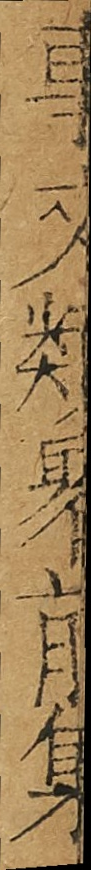事文類聚前集
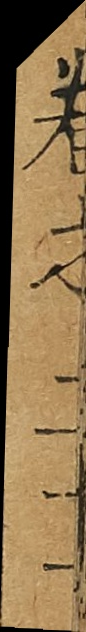卷之二十一
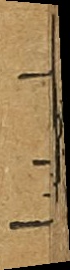十三
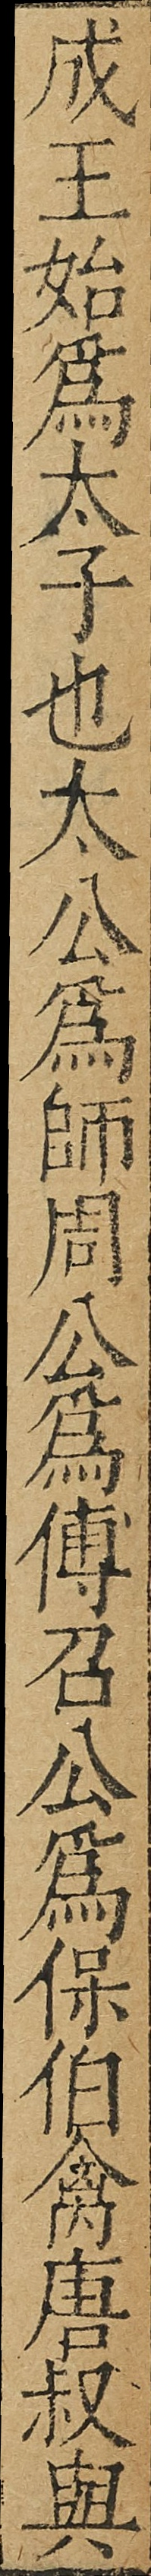成王始為太子也太公為師周公為傅召公為保伯禽唐叔與
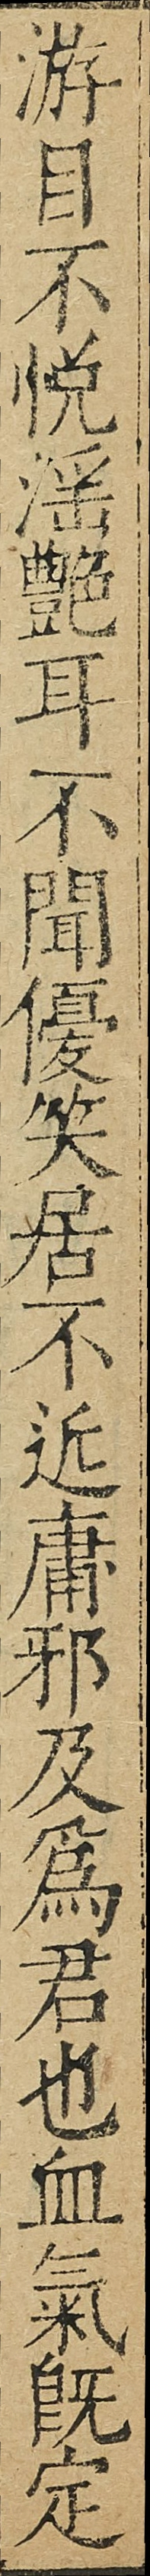游目不恱淫艶耳不聞優笑居不近庸邪及為君也血氣旣定
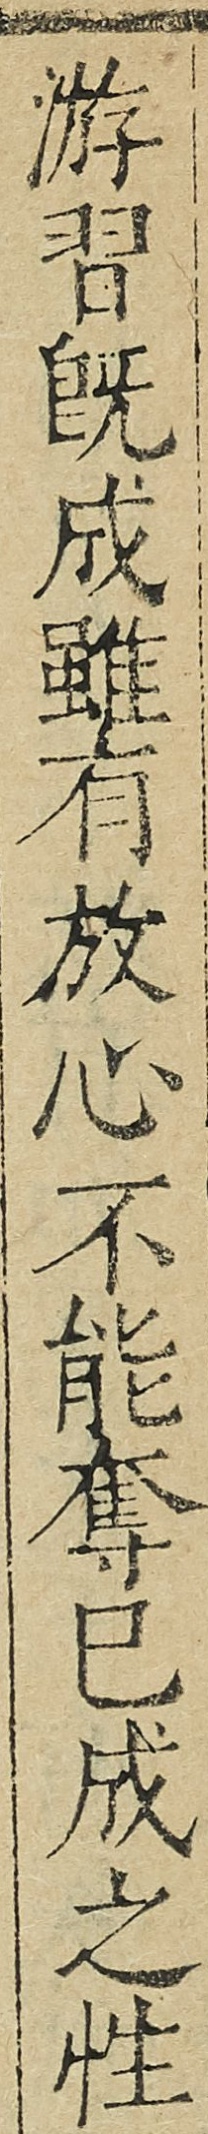游習旣成雖有放心不能奪已成之性
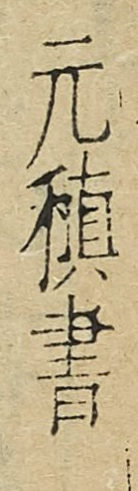元稹書
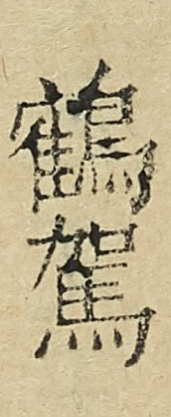鶴駕
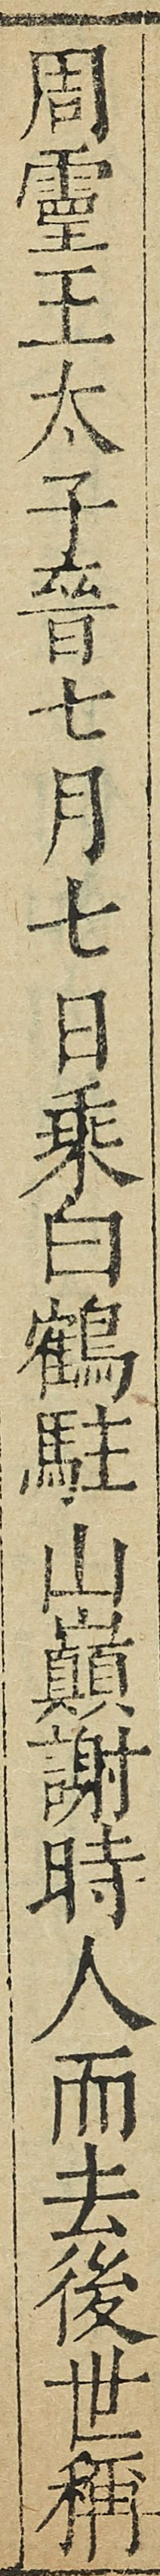周𤫊王太子晉七月七日乘白鶴駐山巔謝時人而去後世稱
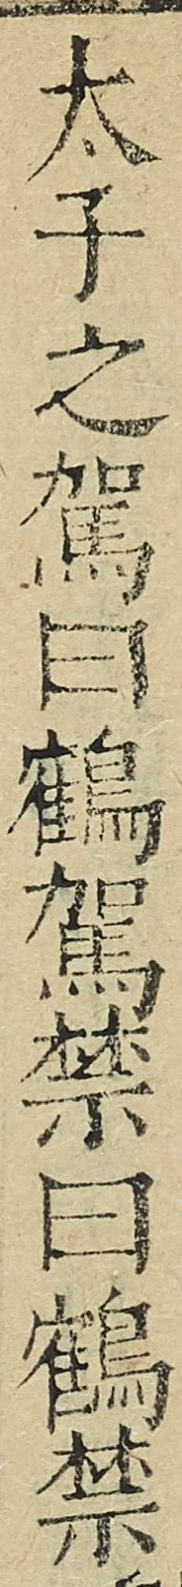太子之駕曰鶴駕禁曰鶴禁
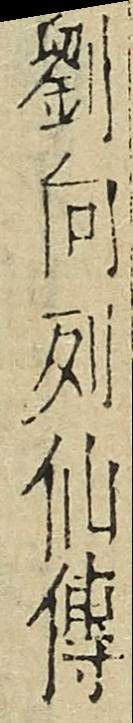劉向列仙傳
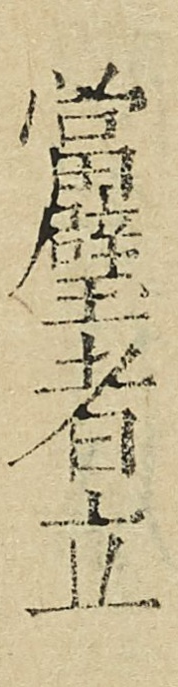當璧者立
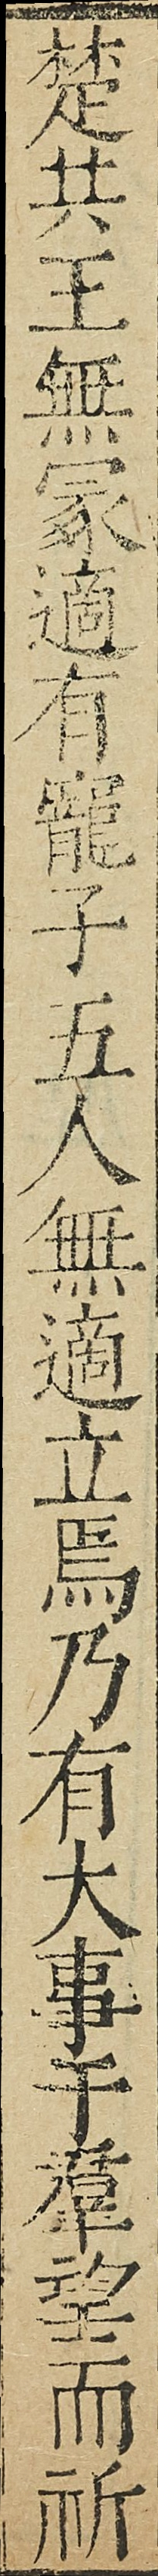楚共王無冢適有寵子五人無適立焉乃有大事于羣望而祈
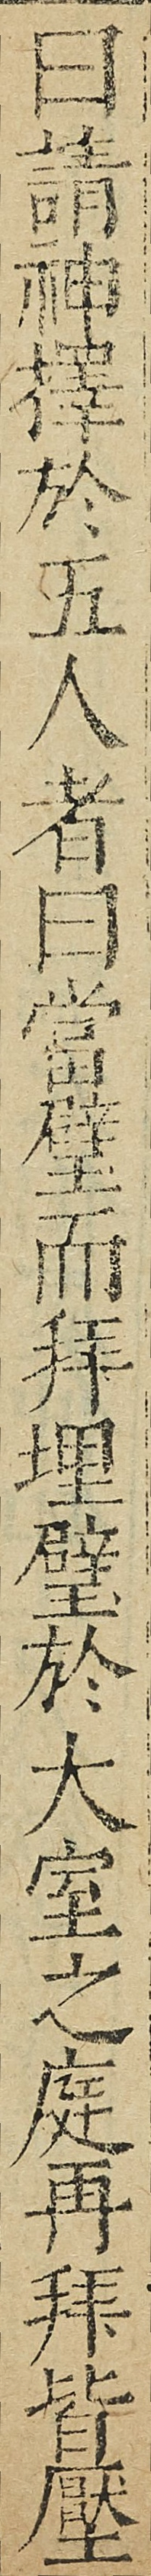曰請神擇於五人者曰當璧而拜埋璧於大室之庭再拜皆壓
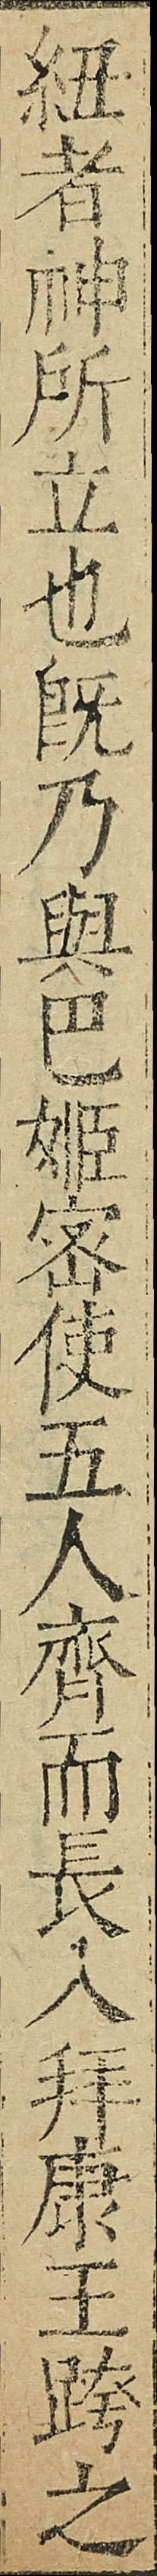紐者神所立也旣乃與巴姬密使五人齊而長入拜康王跨之
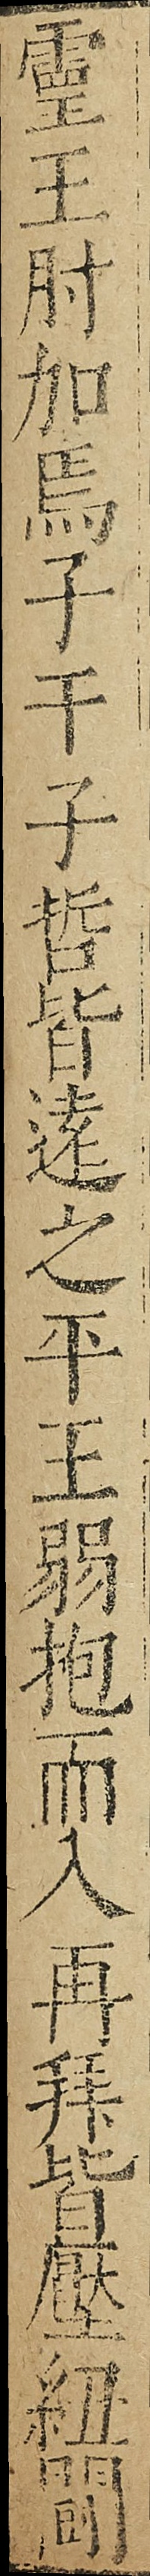𤫊王肘加焉子干子哲皆遠之平王弱抱而入再拜皆壓紐闘
